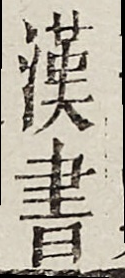漢書
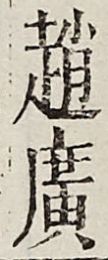趙廣
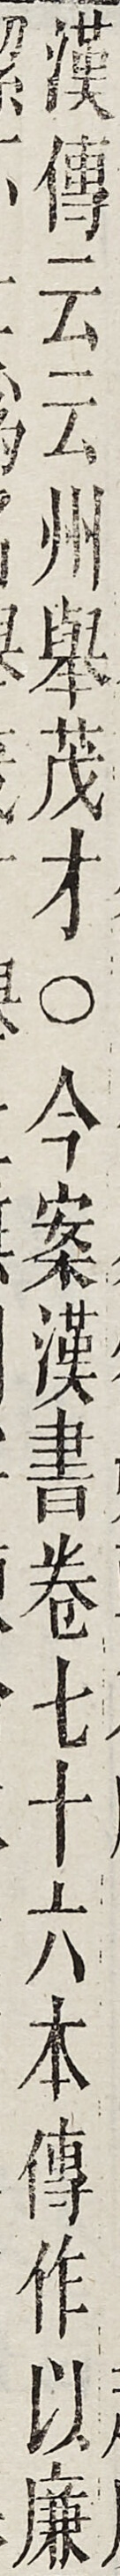漢傳云云州舉茂才○今案漢書卷七十六本傳作以廉
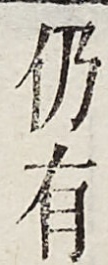仍有
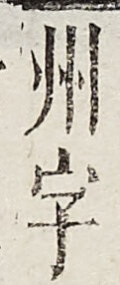州字
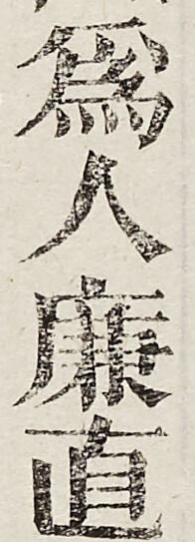為人廉直
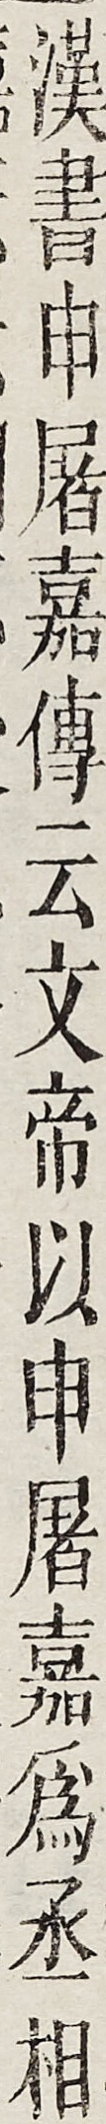漢書申屠嘉傳云文帝以申屠嘉為丞相
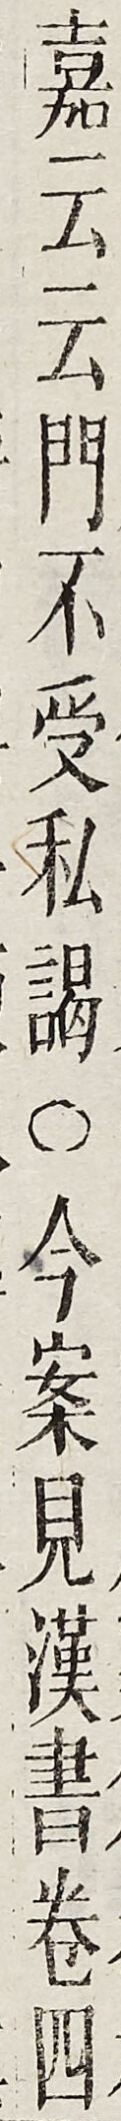嘉云云門不受私謁○今案見漢書卷四
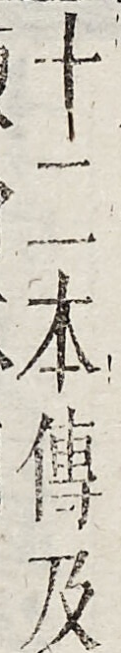十二本傳及
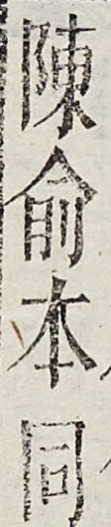陳俞本同
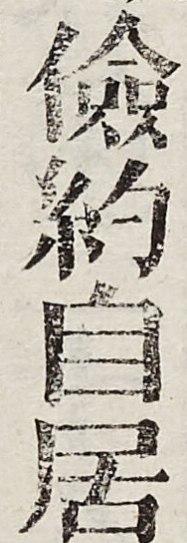儉約自居
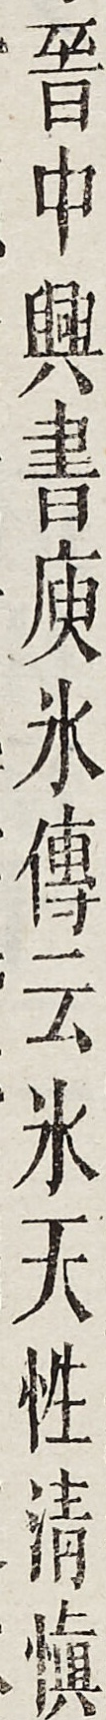晉中興書庾冰傳云冰天性清慎
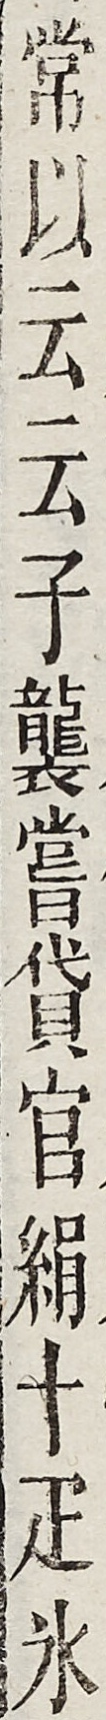常以云云子襲嘗貸官絹十疋冰
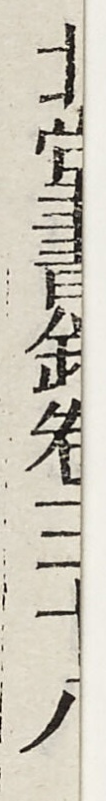北堂書鈔卷第三十八
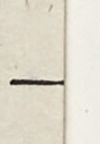一
